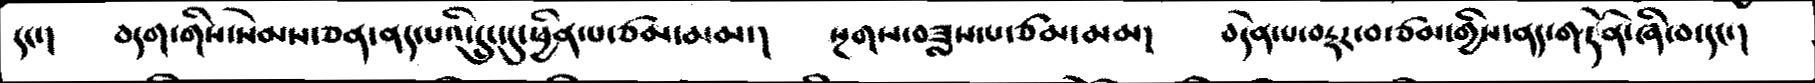དང་།   བདག་གིས་སེམས་ཅན་ནད་པའི་དྲུང་དུ་ཕྱིན་པ་ཙམ་མམ་།    སྔགས་བཟླས་པ་ཙམ་མམ།   བདེན་པ་བརྡར་བ་ཙམ་གྱིས་ནད་གདོན་ཞི་བ་དང་།
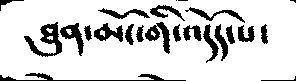ཐུན་མོང་གི་འདོད་པ་
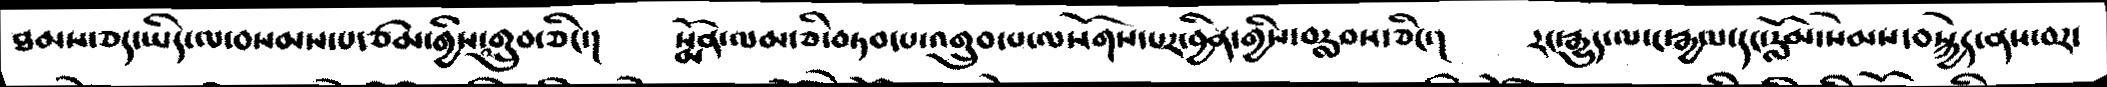ཐམས་ཅད་ཡིད་ལ་བསམས་པ་ཙམ་གྱིས་འགྲུབ་ཅིང་།   སྨོན་ལམ་ཅི་བཏབ་པ་འགྲུབ་པ་ལསོགས་པར་བྱིན་གྱིས་བརླབས་ཅིང་།    རང་རྒྱུད་ལ་ང་རྒྱལ་དང་རློམ་སེམས་བསྐྱེད་ནས་བར་
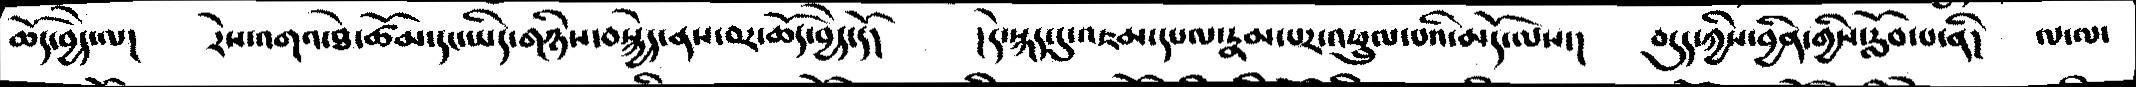ཆོད་བྱེད་ལ།    རེས་འགའ་ཐེ་ཚོམ་དང་ཡིད་གཉིས་བསྐྱེད་ནས་བར་ཆོད་བྱེད་དོ།    །དེ་སྐད་དུ་འཇམ་དཔལ་རྣམ་པར་འཕྲུལ་པའི་མདོ་ལས་།    བདུད་ཀྱིས་བྱིན་གྱིས་རློབ་པ་ནི།    ལ་ལ་
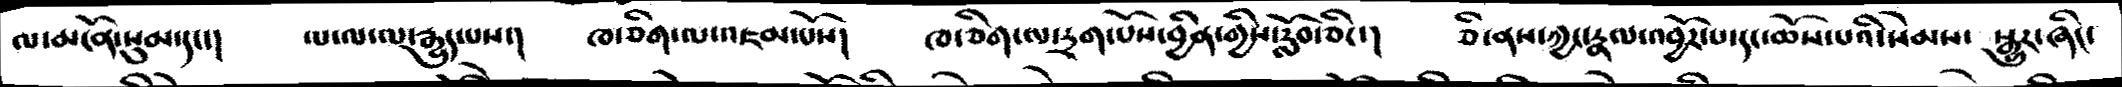ལ་མངོན་སུམ་དང་།     ལ་ལ་ལ་རྒྱུད་པས་།   ཁ་ཅིག་ལ་འཇམ་པོས།  ཁ་ཅིག་ལ་དྲག་པོས་བྱིན་གྱིས་རློབ་ཅིང་།   ཅི་ནས་ཀྱང་རྣལ་འབྱོར་པ་དང་ཆོས་པའི་སེམས་སྒྱུར་ཞིང་
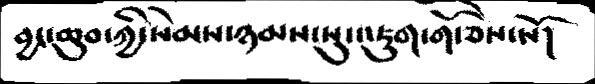བྱང་ཆུབ་ཀྱི་སེམས་ཉམས་སུ་འཇུག་གོ་ཅེས་སོ།
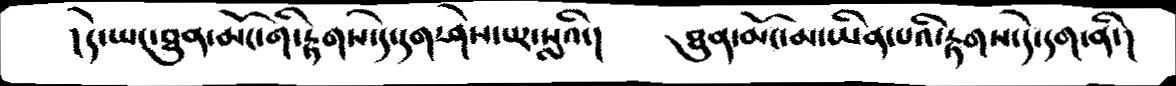།དེ་ཡང་ཐུན་མོང་གི་རྟགས་དེ་དག་ཤེས་པར་སླའི་།        ཐུན་མོང་མ་ཡིན་པའི་རྟགས་དེ་དག་ནི་།
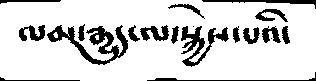ལམ་རྒྱུད་ལ་སྐྱེས་པའི་
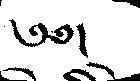༄༅།
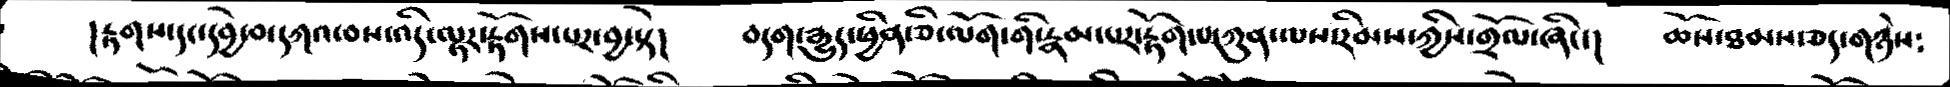།རྟགས་དང་དབྱེ་བ་དཀའ་བས་འདི་ལྟར་རྟོགས་པར་བྱ་སྟེ།    བདག་རྒྱུད་ཕྱིན་ཅི་ལོག་གི་རྣམ་པར་རྟོག་པ་ཀུན་ལས་རིམས་ཀྱིས་གྲོལ་ཞིང་།    ཆོས་ཐམས་ཅད་གཉིས་
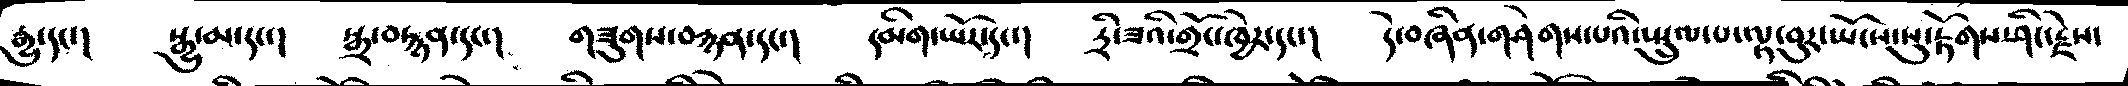རྒྱུ་དང་།    སྒྱུ་མ་དང་།   སྒྲ་བརྙན་དང་།  གཟུགས་བརྙན་དང་།   དམིག་ཡོར་དང་།  དྲི་ཟའི་གྲོང་ཁྱེར་དང་།   དེ་བཞིན་གཤེགས་པའི་སྤྲུལ་པ་ལྟ་བུར་ཡོངས་སུ་རྟོགས་ཤིང་རྗེས་
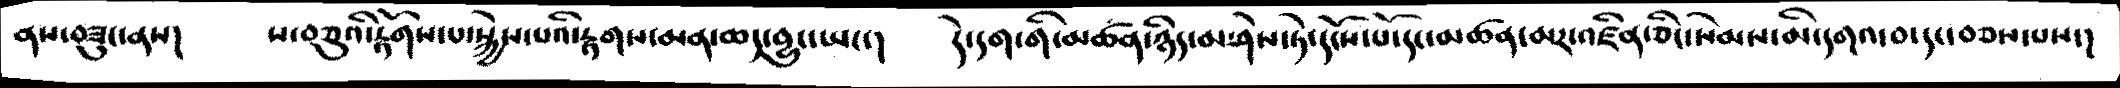ནས་བཟུང་ནས།     ས་བཅུའི་རྟོགས་པ་སྐྱེས་པའི་རྟགས་མན་ཆད་བྱུང་ཡང་།    དེ་དག་གི་མཚན་ཉིད་མ་ཤེས་ཏེ་དངོས་པོ་དང་མཚན་མར་འཛིན་ཅིང་སེམས་མི་དགའ་བ་དང་བཅས་པས་།
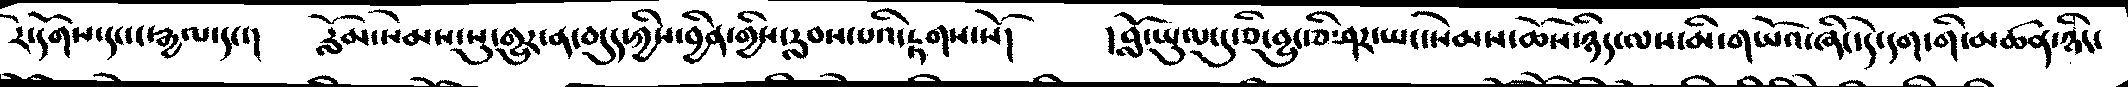རེ་དོགས་དང་ང་རྒྱལ་དང་།    རློམ་སེམས་སུ་གྱུར་ན་བདུད་ཀྱིས་བྱིན་གྱིས་རླབས་པའི་རྟགས་སོ།     །བློ་ཡུལ་དུ་ཅི་བྱུང་ཅི་ཤར་ཡང་སེམས་ཆོས་ཉིད་ལས་མི་གཡོའ་ཞིང་དེ་དག་གི་མཚན་ཉིད་
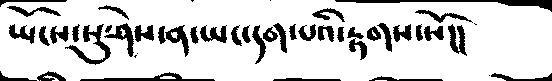ཡོངས་སུ་ཤེས་ན་ཡང་དག་པའི་རྟགས་སོ།།
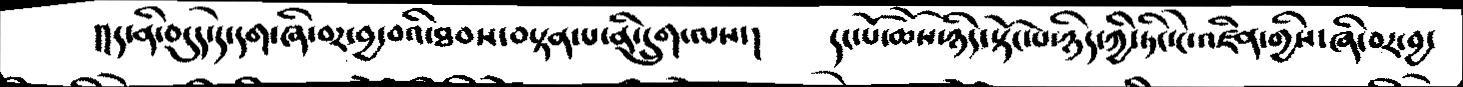།།ད་ནི་བདུད་དེ་དག་ཞི་བར་བྱ་བའི་ཐབས་བསྟན་པ་ནི་དྲུག་ལས་།     དང་པོ་ཆོས་ཉིད་སྟོང་པ་ཉིད་ཀྱི་ཏིང་ངེ་འཛིན་གྱིས་ཞི་བར་བྱ་
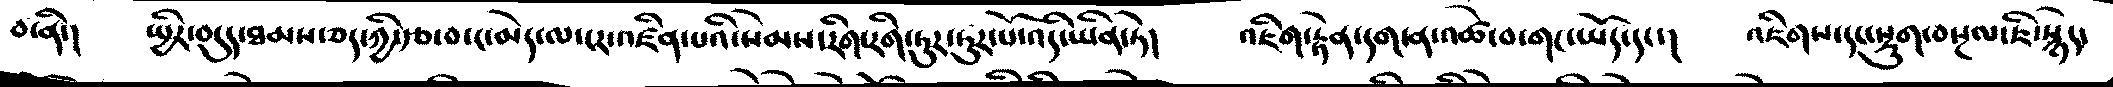བ་ནི་།   སྤྱིར་བདུད་ཐམས་ཅད་ཀྱི་རྩ་བ་ང་མེད་ལ་ངར་འཛིན་པའི་སེམས་རིག་རིག་ཏུར་ཏུར་པོ་འདི་ཡིན་ཏེ།    འཇིག་རྟེན་དག་ན་འཚེ་བ་གང་ཡོད་དང་།     འཇིགས་དང་སྡུག་བསྔལ་ཇི་སྙེད་
